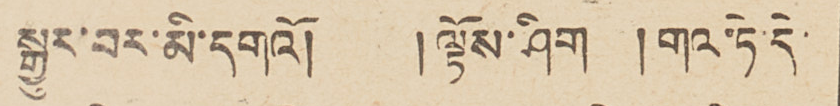སྒྱུར་བར་མི་དགའོ།    །ལྟོས་ཤིག  །གལ་ཏེ་དེ་
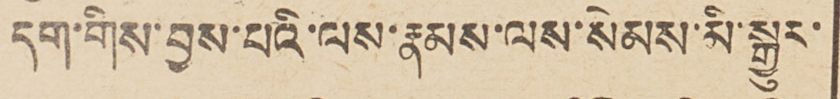དག་གིས་བྱས་པའི་ལས་རྣམས་ལས་སེམས་མི་སྒྱུར་
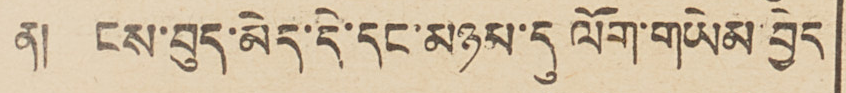ན། ངས་བུད་མེད་དེ་དང་མཉམ་དུ ལོག་གཡེམ་བྱེད
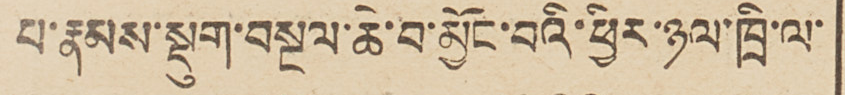པ་རྣམས་སྡུག་བསྔལ་ཆེ་བ་མྱོང་བའི་ཕྱིར་ཉལ་ཁྲི་ལ་
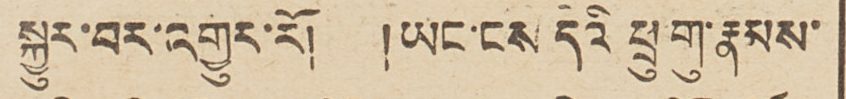སྐྱུར་བར་འགྱུར་རོ། །ཡང་ངས དེའི ཕྲུ་གུ་རྣམས་
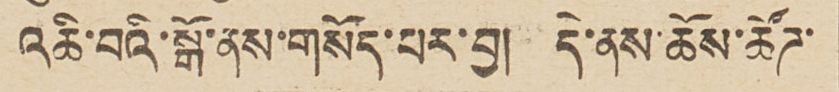འཆི་བའི་སྒོ་ནས་གསོད་པར་བྱ། དེ་ནས་ཆོས་ཚོཌ་
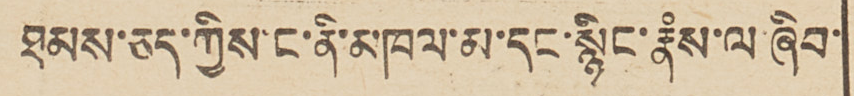ཐམས་ཅད་ཀྱིས་ང་ནི་མཁལ་མ་དང་སྙིང་རྣཾས་ལ་ཞིབ་
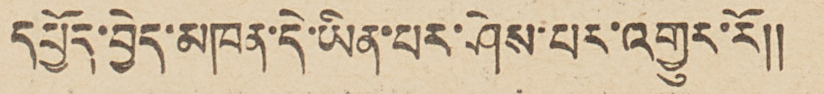དཔྱོད་བྱེད་མཁན་དེ་ཡིན་པར་ཤེས་པར་འགྱུར་རོ།།
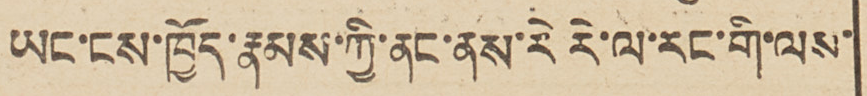ཡང་ངས་ཁྱོད་རྣམས་ཀྱི་ནང་ནས་རེ རེ་ལ་རང་གི་ལས་
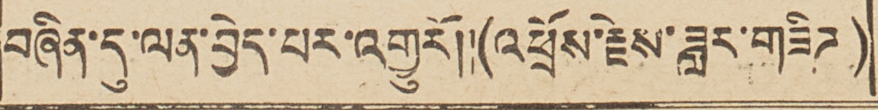བཞིན་དུ་ལན་བྱེད་པར་འགྱུརོ།།(འཕྲོས་རྗེས་ཟླར་གཟིཌ )
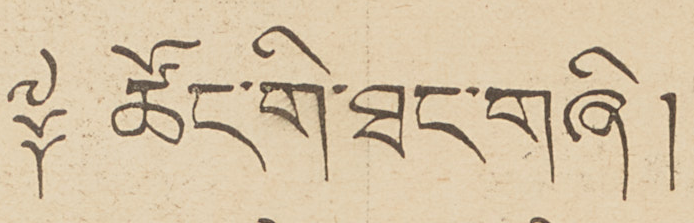༈ ཚོང་གི་ཐང་གཞི།
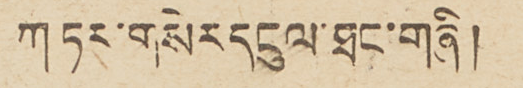ཀ ཏར་གསེར དངུལ་ཐང་གཞི།
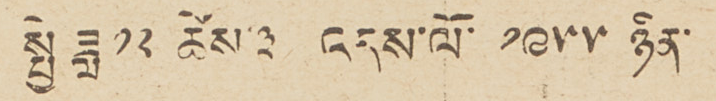སྤྱི ཟླ ༡༢ ཚེས་༣ འདས་ལོ་ ༡༩༥༥ ཉིན་
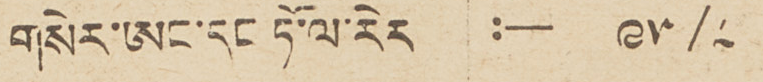གསེར་ཨང་དང ཏོ་ལ་རེར :—  ༩༥/༨
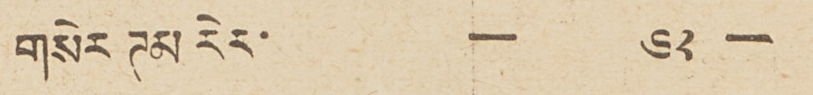གསེར ཊམ རེར་ — ༦༢ 一
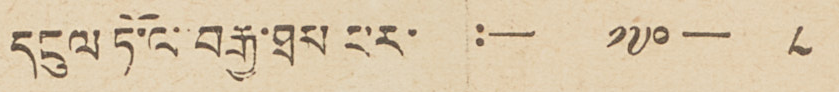དངུལ ཏོ་ལ་བརྒྱ་ཐམ པར་ :— ༡༧༠ — ༨
